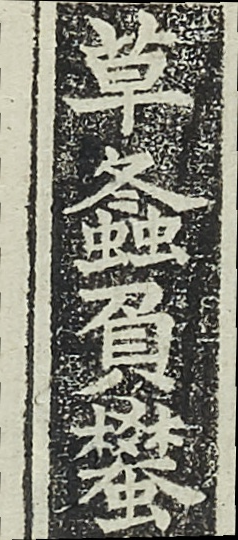草蟲負蠜
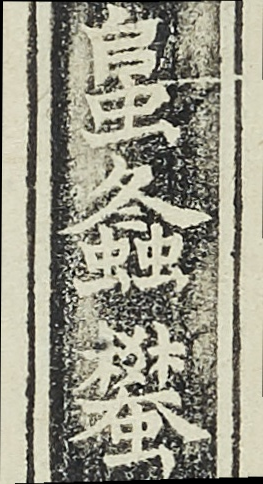蛗螽蠜
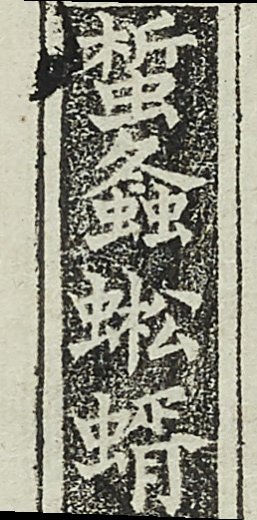蜇螽蚣蝑
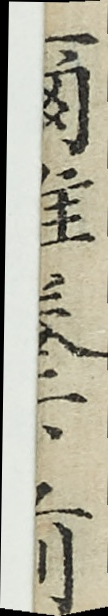爾雅卷下前
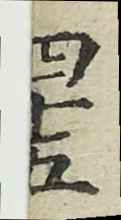四十五
